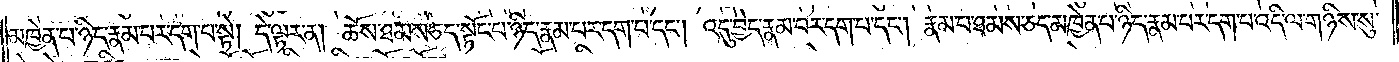མཁྱེན་པ་ཉིད་རྣམ་པར་དག་པ་སྟེ། དེ་ལྟར་ན། ཆོས་ཐམས་ཅད་སྟོང་པ་ཉིད་རྣམ་པར་དག་པ་དང༌། འདུ་བྱེད་རྣམ་པར་དག་པ་དང༌། རྣམ་པ་ཐམས་ཅད་མཁྱེན་པ་ཉིད་རྣམ་པར་དག་པ་འདི་ལ་གཉིས་སུ་
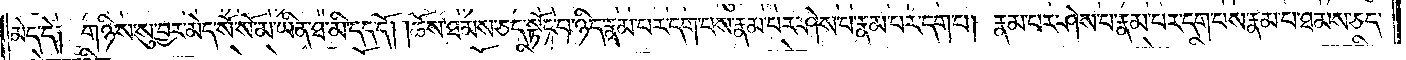མེད་དེ༑ གཉིས་སུ་བྱར་མེད་སོ་སོ་མ་ཡིན་ཐ་མི་དད་དོ། །ཆོས་ཐམས་ཅད་སྟོང་པ་ཉིད་རྣམ་པར་དག་པས་རྣམ་པར་ཤེས་པ་རྣམ་པར་དག་པ། རྣམ་པར་ཤེས་པ་རྣམ་པར་དག་པས་རྣམ་པ་ཐམས་ཅད་
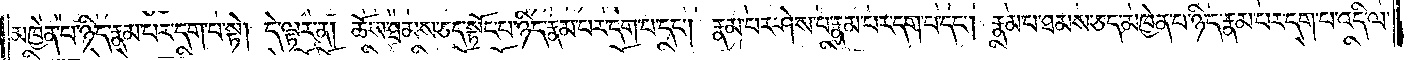མཁྱེན་པ་ཉིད་རྣམ་པར་དག་པ་སྟེ། དེ་ལྟར་ན། ཆོས་ཐམས་ཅད་སྟོང་པ་ཉིད་རྣམ་པར་དག་པ་དང༌། རྣམ་པར་ཤེས་པ་རྣམ་པར་དག་པ་དང༌། རྣམ་པ་ཐམས་ཅད་མཁྱེན་པ་ཉིད་རྣམ་པར་དག་པ་འདི་ལ་
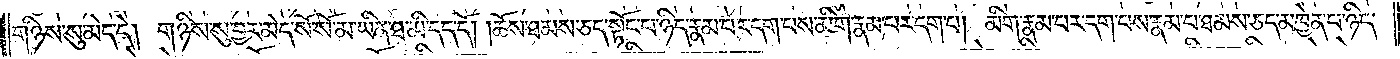གཉིས་སུ་མེད་དེ། གཉིས་སུ་བྱར་མེད་སོ་སོ་མ་ཡིན་ཐ་མི་དད་དོ། །ཆོས་ཐམས་ཅད་སྟོང་པ་ཉིད་རྣམ་པར་དག་པས་མིག་རྣམ་པར་དག་པ། མིག་རྣམ་པར་དག་པས་རྣམ་པ་ཐམས་ཅད་མཁྱེན་པ་ཉིད་
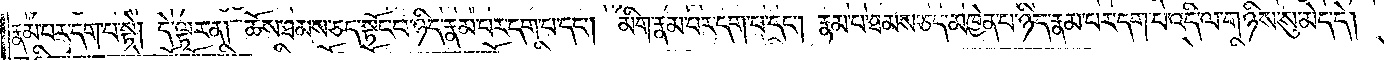རྣམ་པར་དག་པ་སྟེ། དེ་ལྟར་ན། ཆོས་ཐམས་ཅད་སྟོང་པ་ཉིད་རྣམ་པར་དག་པ་དང༌། མིག་རྣམ་པར་དག་པ་དང༌། རྣམ་པ་ཐམས་ཅད་མཁྱེན་པ་ཉིད་རྣམ་པར་དག་པ་འདི་ལ་གཉིས་སུ་མེད་དེ།
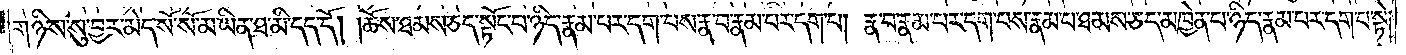གཉིས་སུ་བྱར་མེད་སོ་སོ་མ་ཡིན་ཐ་མི་དད་དོ། །ཆོས་ཐམས་ཅད་སྟོང་པ་ཉིད་རྣམ་པར་དག་པས་རྣ་བ་རྣམ་པར་དག་པ། རྣ་བ་རྣམ་པར་དག་པས་རྣམ་པ་ཐམས་ཅད་མཁྱེན་པ་ཉིད་རྣམ་པར་དག་པ་སྟེ།
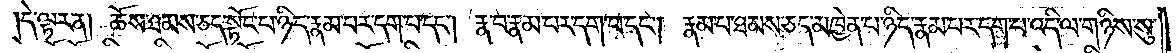དེ་ལྟར་ན། ཆོས་ཐམས་ཅད་སྟོང་པ་ཉིད་རྣམ་པར་དག་པ་དང༌། རྣ་བ་རྣམ་པར་དག་པ་དང༌། རྣམ་པ་ཐམས་ཅད་མཁྱེན་པ་ཉིད་རྣམ་པར་དག་པ་འདི་ལ་གཉིས་སུ་
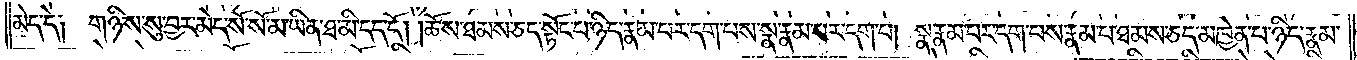མེད་དེ། གཉིས་སུ་བྱར་མེད་སོ་སོ་མ་ཡིན་ཐ་མི་དད་དོ། །ཆོས་ཐམས་ཅད་སྟོང་པ་ཉིད་རྣམ་པར་དག་པས་སྣ་རྣམ་པར་དག་པ། སྣ་རྣམ་པར་དག་པས་རྣམ་པ་ཐམས་ཅད་མཁྱེན་པ་ཉིད་རྣམ་
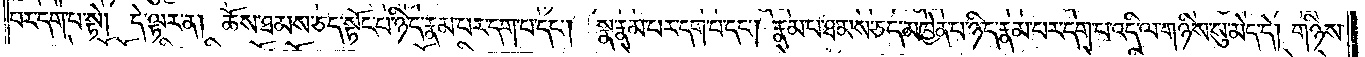པར་དག་པ་སྟེ། དེ་ལྟར་ན། ཆོས་ཐམས་ཅད་སྟོང་པ་ཉིད་རྣམ་པར་དག་པ་དང༌། སྣ་རྣམ་པར་དག་པ་དང༌། རྣམ་པ་ཐམས་ཅད་མཁྱེན་པ་ཉིད་རྣམ་པར་དག་པ་འདི་ལ་གཉིས་སུ་མེད་དེ། གཉིས་
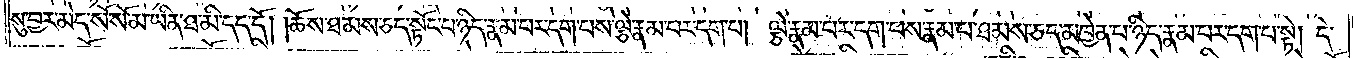སུ་བྱར་མེད་སོ་སོ་མ་ཡིན་ཐ་མི་དད་དོ། །ཆོས་ཐམས་ཅད་སྟོང་པ་ཉིད་རྣམ་པར་དག་པས་ལྕེ་རྣམ་པར་དག་པ། ལྕེ་རྣམ་པར་དག་པས་རྣམ་པ་ཐམས་ཅད་མཁྱེན་པ་ཉིད་རྣམ་པར་དག་པ་སྟེ། དེ་
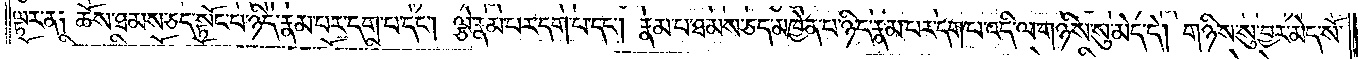ལྟར་ན༑ ཆོས་ཐམས་ཅད་སྟོང་པ་ཉིད་རྣམ་པར་དག་པ་དང༌། ལྕེ་རྣམ་པར་དག་པ་དང༌། རྣམ་པ་ཐམས་ཅད་མཁྱེན་པ་ཉིད་རྣམ་པར་དག་པ་འདི་ལ་གཉིས་སུ་མེད་དེ། གཉིས་སུ་བྱར་མེད་སོ་
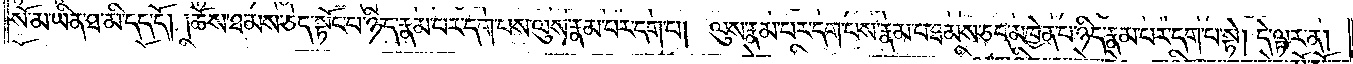སོ་མ་ཡིན་ཐ་མི་དད་དོ། །ཆོས་ཐམས་ཅད་སྟོང་པ་ཉིད་རྣམ་པར་དག་པས་ལུས་རྣམ་པར་དག་པ། ལུས་རྣམ་པར་དག་པས་རྣམ་པ་ཐམས་ཅད་མཁྱེན་པ་ཉིད་རྣམ་པར་དག་པ་སྟེ། དེ་ལྟར་ན།
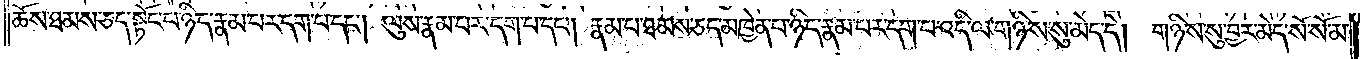ཆོས་ཐམས་ཅད་སྟོང་པ་ཉིད་རྣམ་པར་དག་པ་དང༌། ལུས་རྣམ་པར་དག་པ་དང༌། རྣམ་པ་ཐམས་ཅད་མཁྱེན་པ་ཉིད་རྣམ་པར་དག་པ་འདི་ལ་གཉིས་སུ་མེད་དེ། གཉིས་སུ་བྱར་མེད་སོ་སོ་མ་
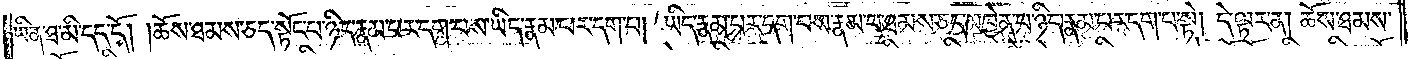ཡིན་ཐ་མི་དད་དོ། །ཆོས་ཐམས་ཅད་སྟོང་པ་ཉིད་རྣམ་པར་དག་པས་ཡིད་རྣམ་པར་དག་པ། ཡིད་རྣམ་པར་དག་པས་རྣམ་པ་ཐམས་ཅད་མཁྱེན་པ་ཉིད་རྣམ་པར་དག་པ་སྟེ། དེ་ལྟར་ན། ཆོས་ཐམས་
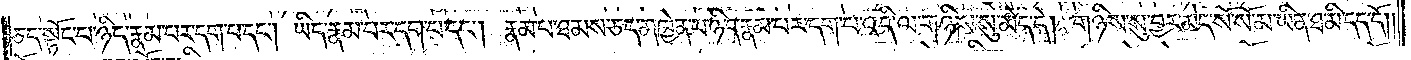ཅད་སྟོང་པ་ཉིད་རྣམ་པར་དག་པ་དང༌། ཡིད་རྣམ་པར་དག་པ་དང༌། རྣམ་པ་ཐམས་ཅད་མཁྱེན་པ་ཉིད་རྣམ་པར་དག་པ་འདི་ལ་གཉིས་སུ་མེད་དེ། གཉིས་སུ་བྱར་མེད་སོ་སོ་མ་ཡིན་ཐ་མི་དད་དོ། །
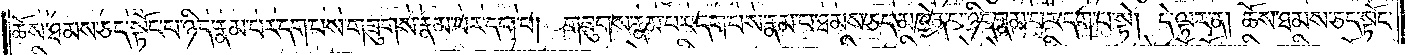ཆོས་ཐམས་ཅད་སྟོང་པ་ཉིད་རྣམ་པར་དག་པས་གཟུགས་རྣམ་པར་དག་པ། གཟུགས་རྣམ་པར་དག་པས་རྣམ་པ་ཐམས་ཅད་མཁྱེན་པ་ཉིད་རྣམ་པར་དག་པ་སྟེ། དེ་ལྟར་ན། ཆོས་ཐམས་ཅད་སྟོང་
